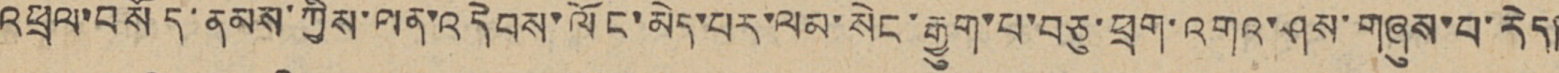འཕྲལ་བསོད་ནམས་ཀྱིས་ལན་འདེབས་ལོང་མེད་པར་ལམ་སེང་རྒྱུག་པ་བཅུ་ཕྲག་འགའ་ཤས་གཞུས་པ་རེད།
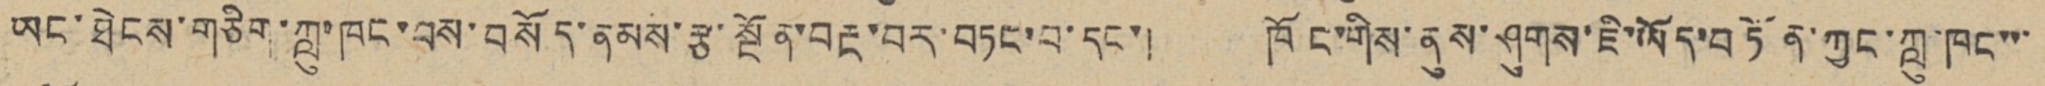ཡང་ཐེངས་གཅིག་ཀླུ་ཁང་བས་བསོད་ནམས་རྩ་སྔོན་བརྔ་བར་བཏང་བ་དང་། ཁོང་གིས་ནུས་ཤུགས་ཇི་ཡོད་བཏོན་ཀྱང་ཀླུ་ཁང་་་
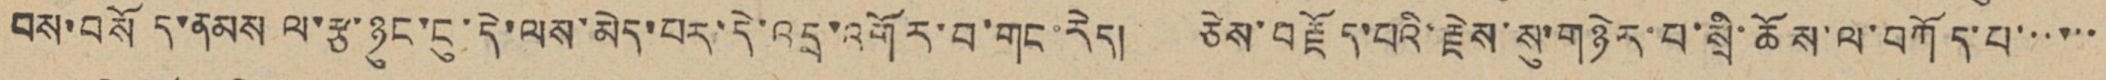བས་བསོད་ནམས ལ་རྩ་ཉུང་ངུ་དེ་ལས་མེད་པར་དེ་འདྲ་འགོར་བ་གང་རེད། ཅེས་བརྗོད་པའི་རྗེས་སུ་གཉེར་པ་སྲི་ཆོས་ལ་བཀོད་པ་་་་་་
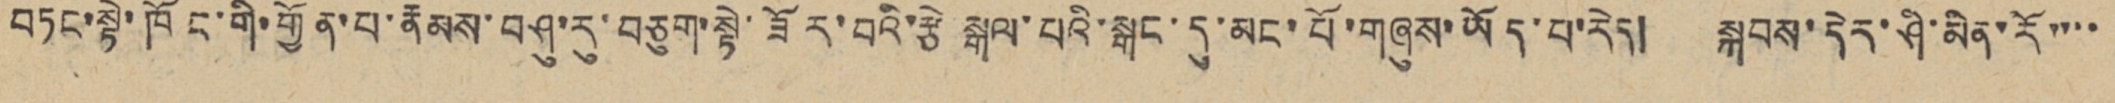བཏང་སྟེ་ཁོང་གི་གྱོན་པ་རྣམས་བཤུ་རུ་བཅུག་སྟེ་ཟོར་བའི་རྩེ སྒལ་པའི་སྒང་དུ་མང་པོ་གཞུས་ཡོད་པ་རེད། སྐབས་དེར་ཤི་མིན་རོ་་་་
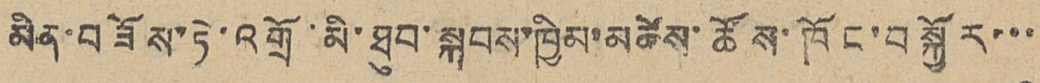མིན་བཟོས་ཏེ་འགྲོ་མི་ཐུབ་སྐབས་ཁྱིམ་མཚེས་ཚོས་ཁོང་བསྐྱོར་་་
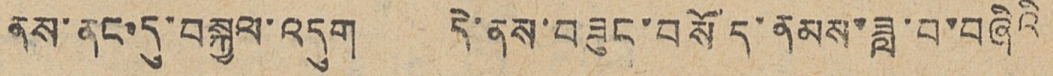ནས་ནང་དུ་བསྐྱལ་འདུག དེ་ནས་བཟུང་བསོད་ནམས་ཟླ་བ་བཞིའི
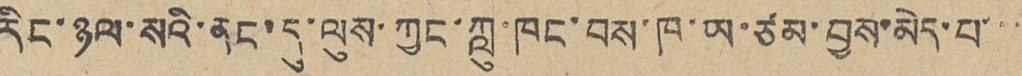རིང་ཉལ་སའི་ནང་དུ་ལུས་ཀྱང་ཀླུ་ཁང་བས་ཁ་ཡ་ཙམ་བྱས་མེད་པ་་་
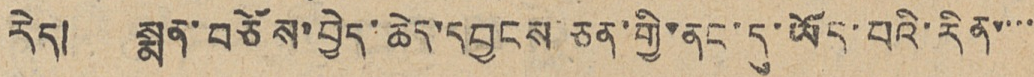རེད། སྨན་བཅོས་བྱེད་ཆེད་དབྱངས ཅན་གྱི་ནང་དུ་ཡོད་པའི་རིན་་་་
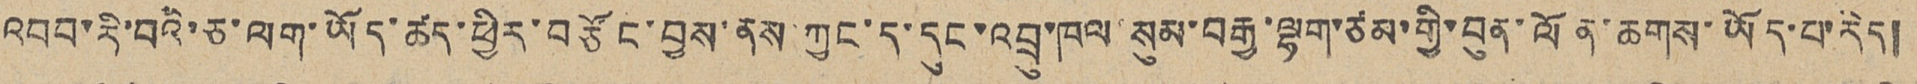འབབ་རི་བའི་ཅ་ལག་ཡོད་ཚད་ཕྱིར་བཙོང་བྱས་ནས ཀྱང་ད་དུང་འབྲུ་ཁལ་སུམ་བརྒྱ་ལྷག་ཙམ་གྱི་བུན་ལོན་ཆགས་ཡོད་པ་རེད།
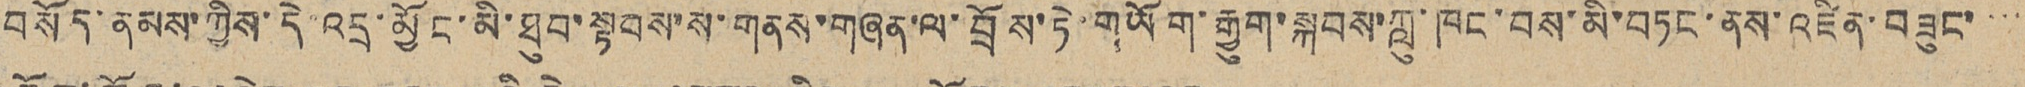བསོད་ནམས་ཀྱིས་དེ་འདྲ་མྱོང་མི་ཐུབ་སྟབས་ས་གནས་གཞན་ལ་བྲོས་ཏེ་གཡོག་རྒྱུག་སྐབས་ཀླུ་ཁང་བས་མི་བཏང་ནས་འཛིན་བཟུང་
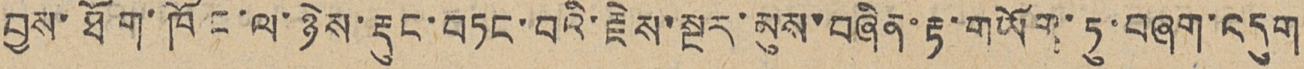བྱས་ཐོག་ཁོང་ལ་ཉེས་རྡུང་བཏང་བའི་རྗེས་སྔར་མུས་བཞིན་རྟ་གཡོག་ཏུ་བཞག་འདུག
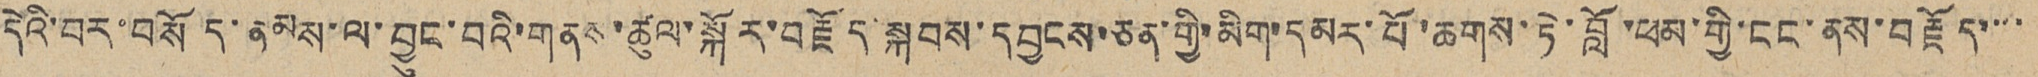དེའི་བར་བསོད་ནམས་ལ་བྱུང་བའི་གནས་ཚུལ་སྐོར་བརྗོད་སྐབས་དབྱངས་ཅན་གྱི་མིག་དམར་པོ་ཆགས་ཏེ་བློ་ཕམ་གྱི་ངང་ནས་བརྗོད་་་་
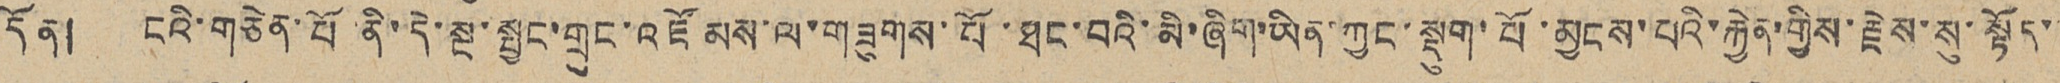དོན། ངའི་གཅེན་པོ་ནི་དེ་སྔ་སྦྱང་གྲུང་འཛོམས་ལ་གཟུགས་པོ་ཐང་བའི་མི་ཞིག་ཡིན་ཀྱང་སྡུག་པོ་མྱངས་པའི་རྐྱེན་གྱིས་རྗེས་སུ་སྟོད་་་
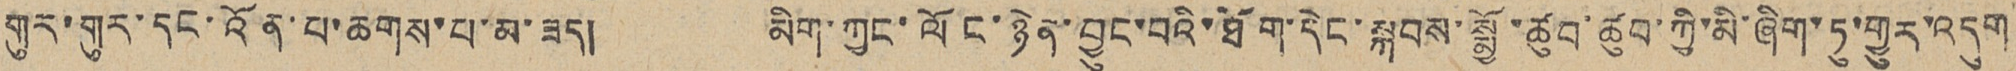གུར་གུར་དང་འོན་པ་ཆགས་པ་མ་ཟད། མིག་ཀྱང་ལོང་ཉེན་བྱུང་བའི་ཐོག་དེང་སྐབས་སྨྱོ་ཚུབ་ཚུབ་ཀྱི་མི་ཞིག་ཏུ་གྱུར་འདུག
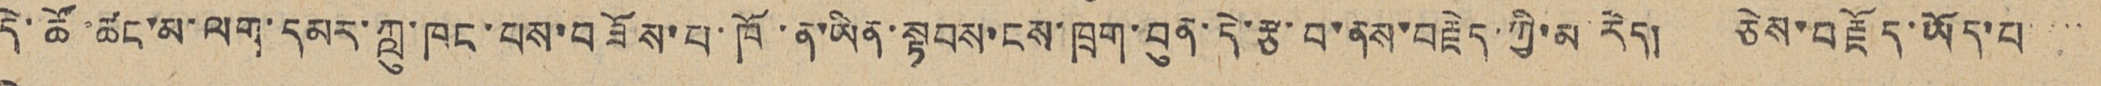དེ་ཚོ་ཚང་མ་ལག་དམར་ཀླུ་ཁང་བས་བཟོས་པ་ཁོ་ན་ཡིན་སྟབས་ངས་ཁྲག་བུན་དེ་རྩ་བ་ནས་བརྗེད་ཀྱི་མ རེད། ཅེས་བརྗོད་ཡོད་པ་་་་
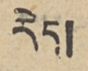རེད།
